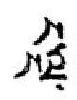ང་ལྔ་
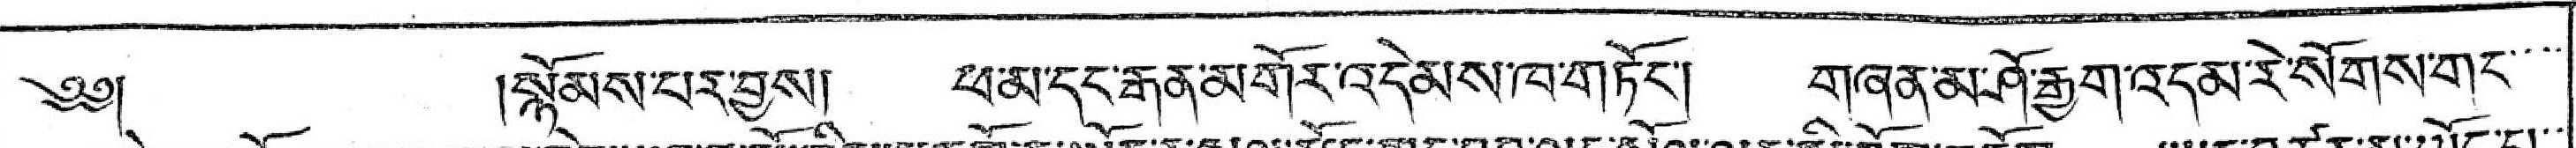༄༅།  །སྣོམས་པར་བྱས། ཕ་མ་དང་རྒན་མགོར་འདེམས་ཁ་གཏོང་། བཞན་མ་ཤོ་རྒྱག་འདམ་རེ་སོགས་གང་་་་།
